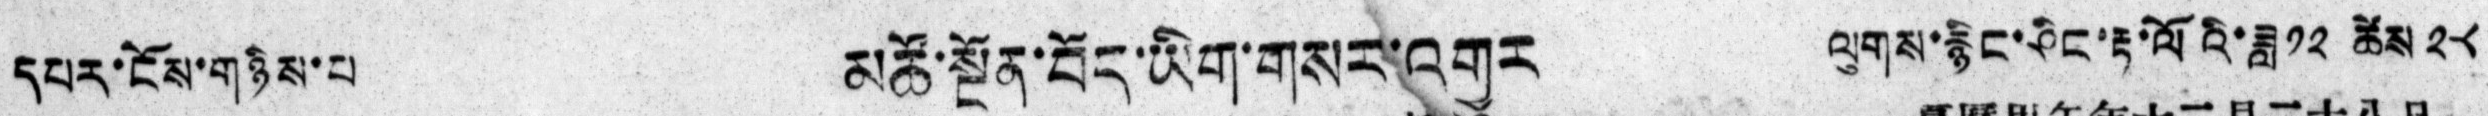དཔར་ངོས་གཉིས་པ། མཚོ་སྔོན་བོད་ཡིག་གསར་འགྱུར ལུགས་རྙིང་ཤིང་རྟ་ལོའི་ཟླ༡༢ ཚེས༢༨
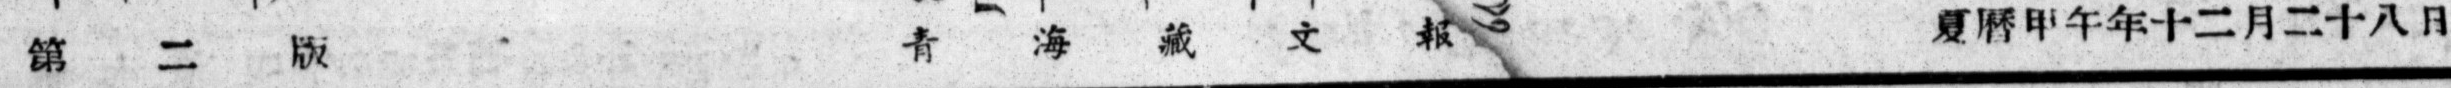第 二 版 青 海 藏 文 報 夏曆甲午年十二月二十八日
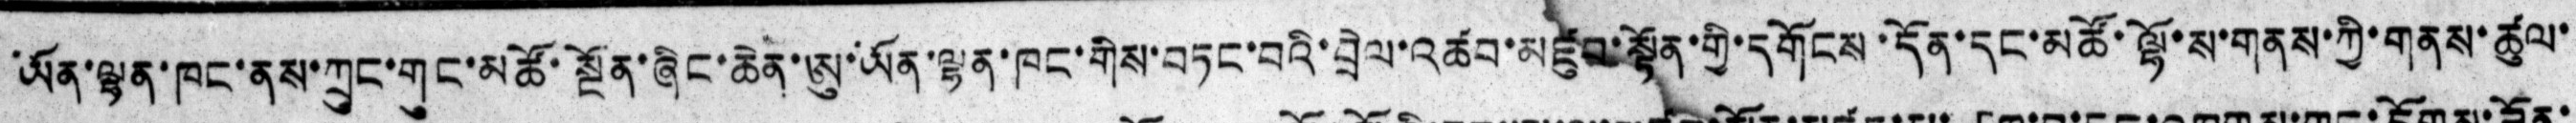ཡོན་ལྷན་ཁང་ནས་ཀྲུང་གུང་མཚོ་སྔོན་ཞིང་ཆེན་ཨུ་ཡོན་ལྷན་ཁང་གིས་བཏང་བའི་བྲེལ་འཚབ་མཛུབ་སྣོནགྱིདགོངས་དོན་དང་མཚོ་ལྷོ་ས་གནས་ཀྱི་གནས་ཚུལ་
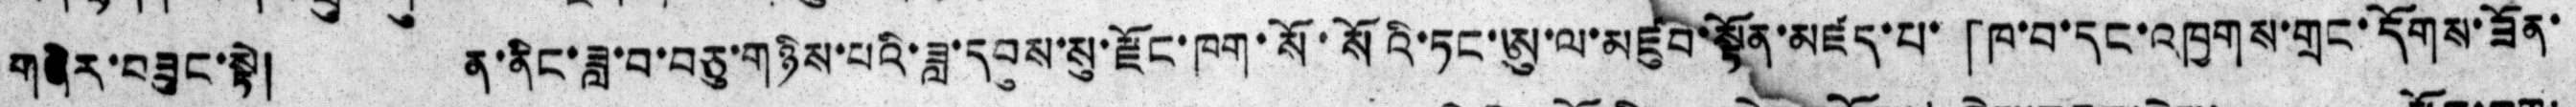གཞིར་བཟུང་སྟེ། ན་ནིང་ཟླ་བ་བཅུ་གཉིས་པའི་ཟླ་དབུས་སུ་རྫོང་ཁག་སོ་སོའི་ཏང་ཨུ་ལ་མཛུབ་སྟོན་མཛད་པ་「ཁ་བ་དང་འཁྱགས་གྲང་དོགས་ཟོན་
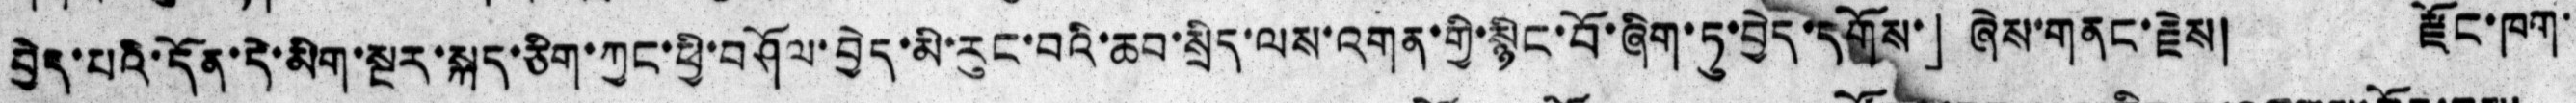བྱེད་པའི་དོན་དེ་མིག་སྔར་སྐད་ཅིག་ཀྱང་ཕྱི་བཤོལ་བྱེད་མི་རུང་བའི་ཆབ་སྲིད་ལས་འགན་གྱི་སྙིང་བོ་ཞིག་ཏུ་བྱེད་དགོས་」ཞེས་གནང་རྗེས། རྫོང་ཁག་
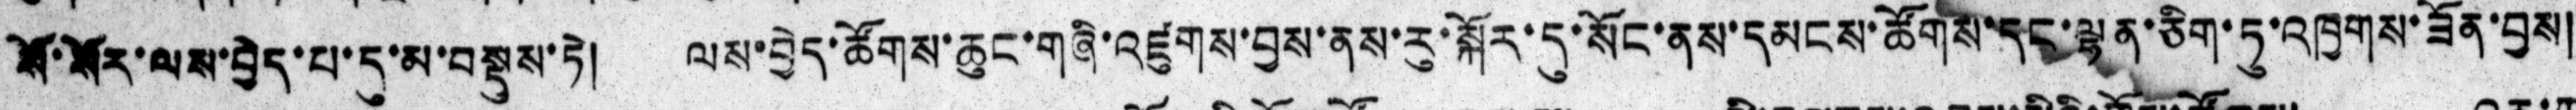སོ་སོར་ལས་བྱེད་པ་དུ་མ་བསྡུས་ཏེ། ལས་བྱེད་ཚོགས་ཆུང་གཞི་འཛུགས་བྱས་ནས་རུ་སྐོར་དུ་སོང་ནས་དམངས་ཚོགས་དང་ལྡན་ཅིག་ཏུ་འཁྱགས་ཟོན་བྱས།
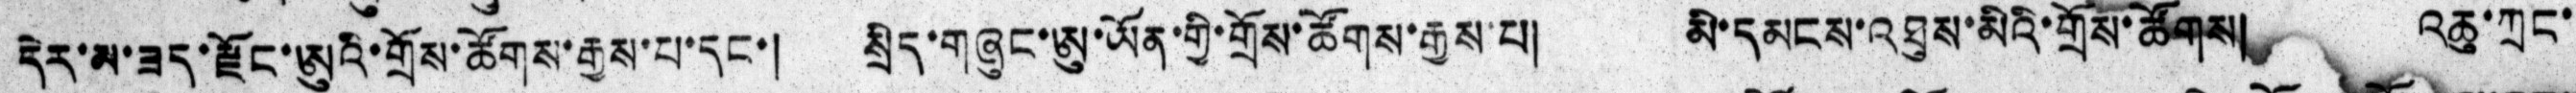དེར་མ་ཟད་རྫོང་ཨུའི་གྲོས་ཚོགས་རྒྱས་པ་དང་། སྲིད་གཞུང་ཨུ་ཡོན་གྱི་གྲོས་ཚོགས་རྒྱས་པ། མི་དམངས་འཐུས་མིའི་གྲོས་ཚོགས འཆུ་ཀྲང་
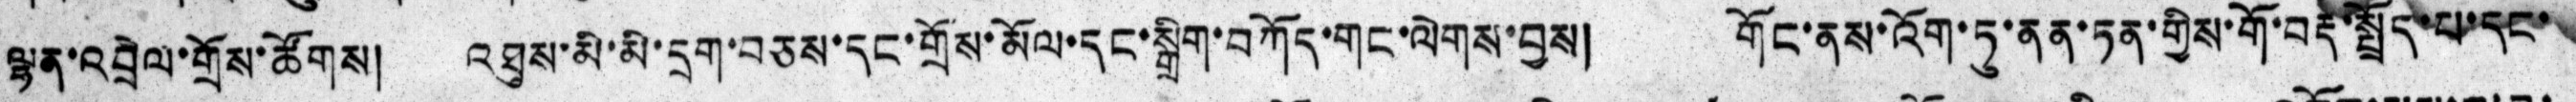ལྷན་འབྲེལ་གྲོས་ཚོགས། འཐུས་མི་མི་དྲག་བཅས་དང་གྲོས་མོལ་དང་སྒྲིག་བཀོད་གང་ལེགས་བྱས། གོང་ནས་འོག་ཏུ་ནན་ཏན་གྱིས་གོ་བརྡ་སྤྲོད་པ་དང་
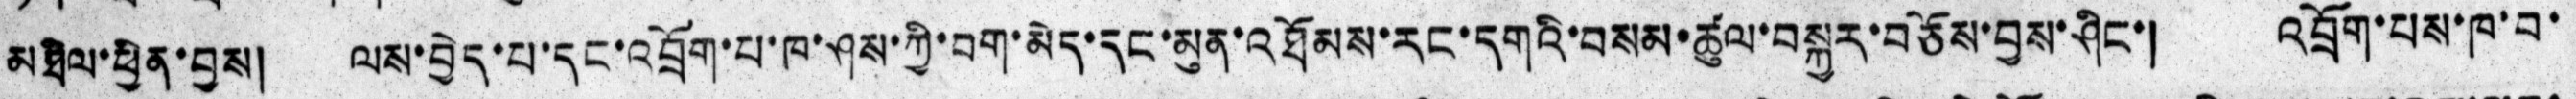མཐིལ་ཕྱིན་བྱས། ལས་བྱེད་པ་དང་འབྲོག་པ་ཁ་ཤས་ཀྱི་བག་མེད་དང་མུན་འཐོམས་རང་དགའི་བསམ་ཚུལ་བསྐྱར་བཅོས་བྱས་ཤིང་། འབྲོག་པས་ཁ་བ་
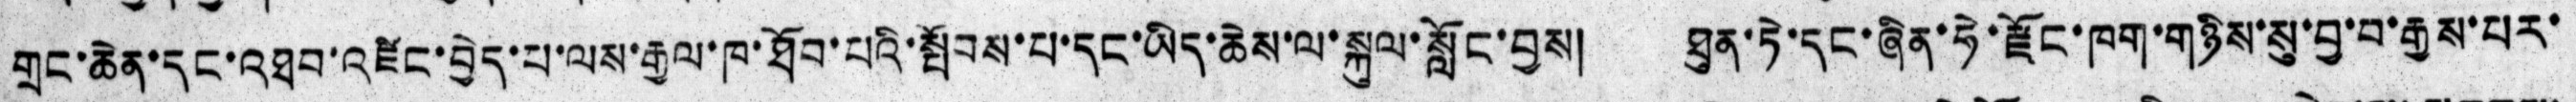གྲང་ཆེན་དང་འཐབ་འཛིང་བྱེད་པ་ལས་རྒྱལ་ཁ་ཐོབ་པའི་སྤོབས་པ་དང་ཡིད་ཆེས་ལ་སྐུལ་སློང་བྱས། ཐུན་ཏེ་དང་ཞིན་ཧེ་རྫོང་ཁག་གཉིས་སུ་བྱ་བ་རྒྱས་པར་
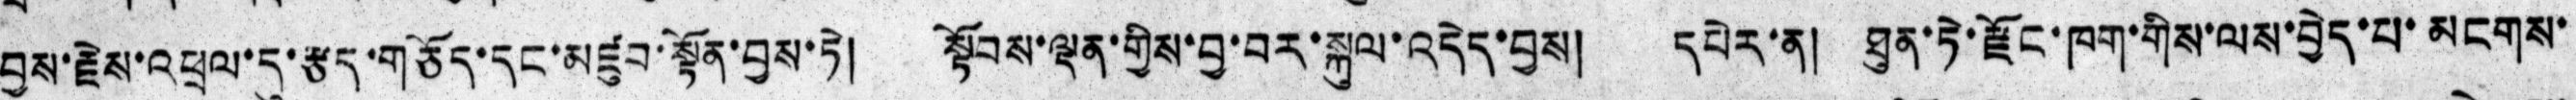བྱས་རྗེས་འཕྲལ་དུ་རྩད་གཅོད་དང་མཛུབ་སྟོན་བྱས་ཏེ། སྟོབས་ལྡན་གྱིས་བྱ་བར་སྐུལ་འདེད་བྱས། དཔེར་ན། ཐུན་ཏེ་རྫོང་ཁག་གིས་ལས་བྱེད་པ་མངགས་
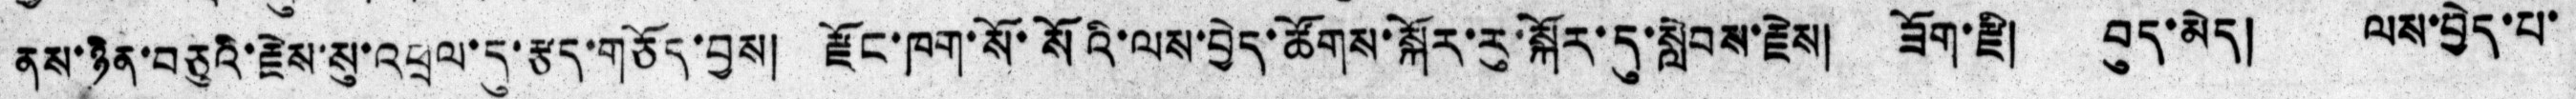ནས་ཉིན་བཅུའི་རྗེས་སུ་འཕྲལ་དུ་རྩད་གཅོད་བྱས། རྫོང་ཁག་སོ་སོའི་ལས་བྱེད་ཚོགས་སྐོར་རུ་སྐོར་དུ་སླེབས་རྗེས། ཟོག་རྫི། བུད་མེད། ལས་བྱེད་པ་
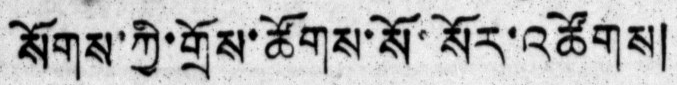སོགས་ཀྱི་གྲོས་ཚོགས་སོ་སོར་འཚོགས།
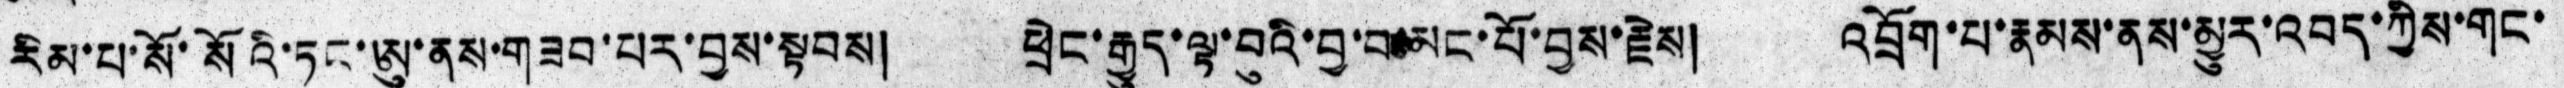རིམ་པ་སོ་སོའི་ཏང་ཨུ་ནས་གཟབ་པར་བྱས་སྟབས། ཕྲེང་རྒྱུད་ལྟ་བུའི་བྱ་བམང་པོ་བྱས་རྗེས། འབྲོག་པ་རྣམས་ནས་མྱུར་འབད་ཀྱིས་གང་
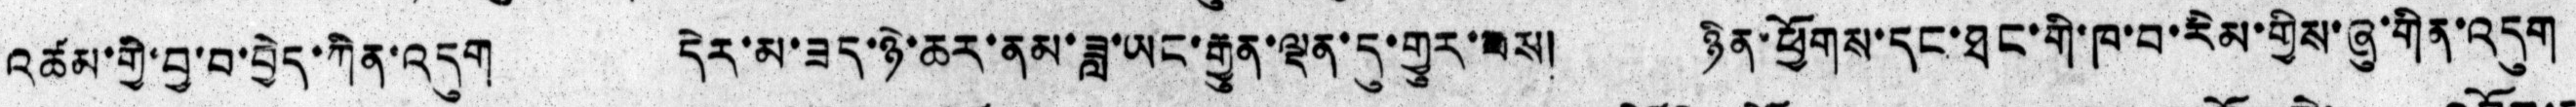གྱི་བྱ་བ་བྱེད་ཀིན་འདུག དེར་མ་ཟད་ཉེ་ཆར་ནམ་ཟླ་ཡང་རྒྱུན་ལྡན་དུ་གྱུར་བས། ཉིན་ཕྱོགས་དང་ཐང་གི་ཁ་བ་རིམ་གྱིས་ཞུ་གིན་འདུག
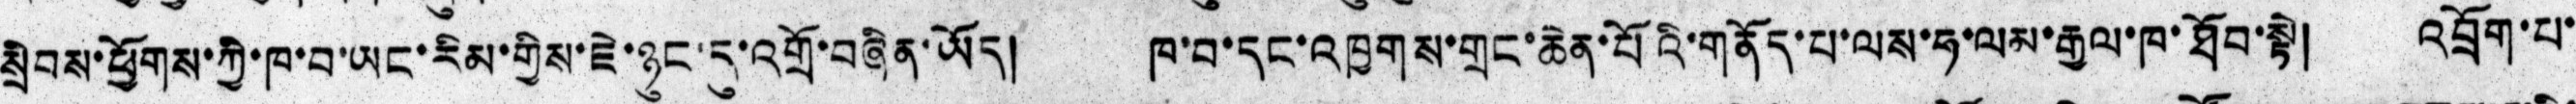སྲེབས་ཕྱོགས་ཀྱི་ཁ་བ་ཡང་རིམ་གྱིས་ཇེ་ཉུང་དུ་འགྲོ་བཞིན་ཡོད། ཁ་བ་དང་འཁྱགས་གྲང་ཆེན་པོའི་གནོད་པ་ལས་ཧ་ལམ་རྒྱལ་ཁ་ཐོབ་སྟེ། འབྲོག་པ་
